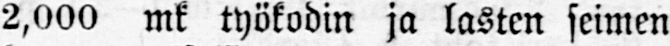2,000 mk työkodin ja lasten seimen
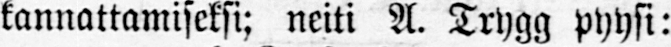kannattamiseksi: neiti A. Trygg pyysi:
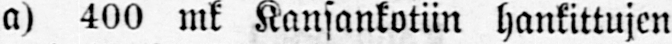a) 400 mk Kansankotiin hankittujen
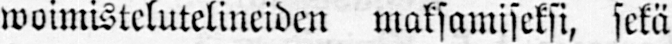woimistelutelineiden maksamiseksi, sekä
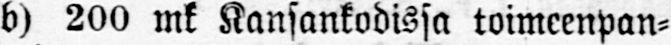b) 200 mk Kansankodissa toimeenpan-
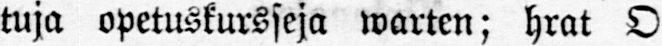tuja opetuskursseja warten; hrat O
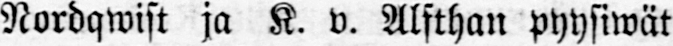Nordqwist ja K. v. Alfthan pyysiwät
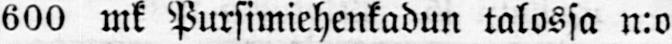600 mk Pursimiehenkadun talossa n:o
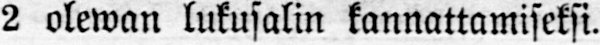2 olewan lukusalin kannattamiseksi.
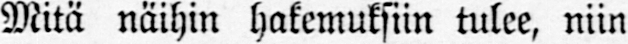Mitä näihin hakemuksiin tulee, niin
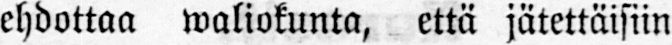ehdottaa waliokunta, että jätettäisiin
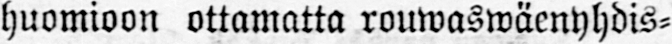huomioon ottamatta rouwaswäenyhdis-
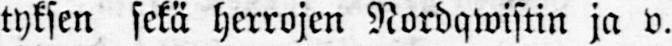tyksen sekä herrojen Nordqwistin ja v.
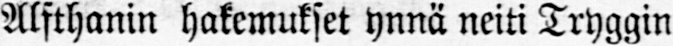Alfthanin hakemukset ynnä neiti Tryggin
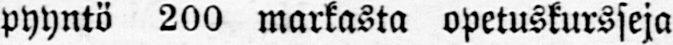pyyntö 200 markasta opetuskursseja
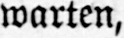warten,
